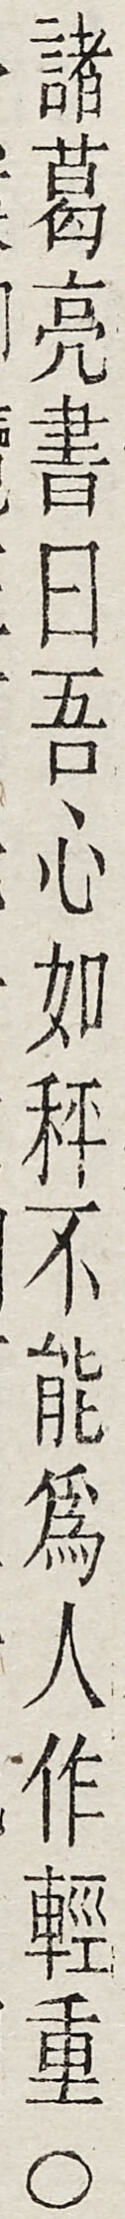諸葛亮書曰吾心如秤不能為人作輕重○
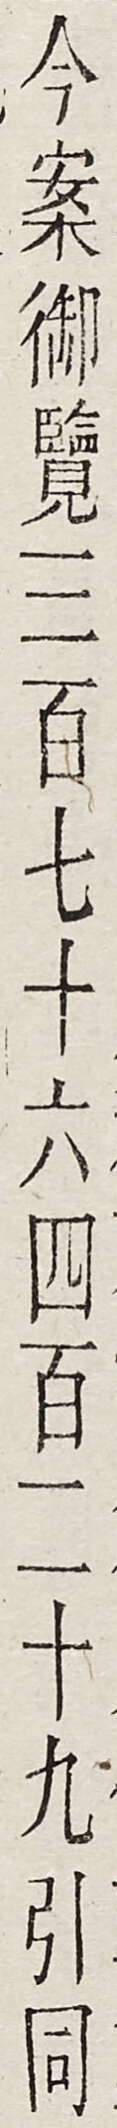今案御覽三百七十六四百二十九引同
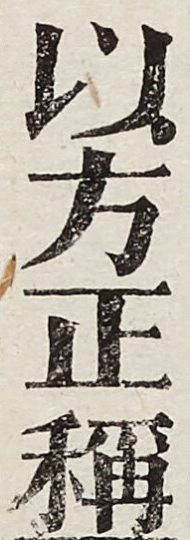以方正稱
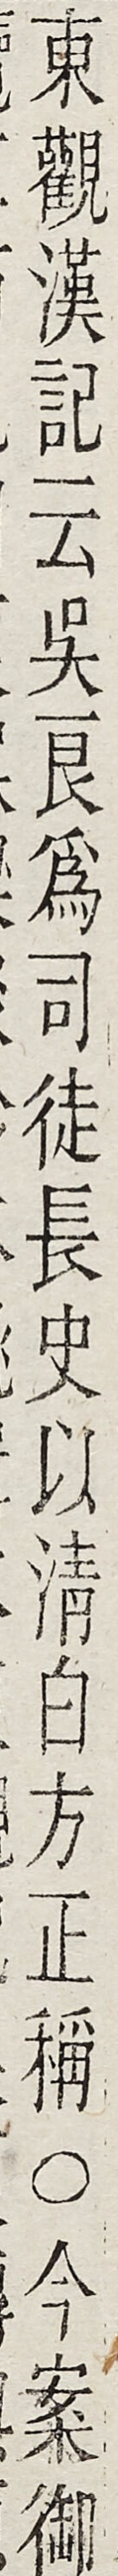東觀漢記云吳良為司徒長史以清白方正稱○今案御
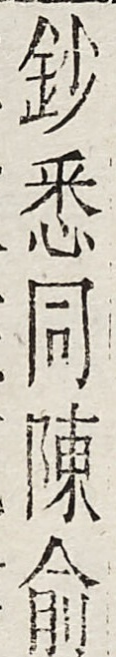鈔悉同陳俞
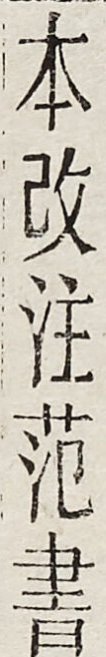本改注範書
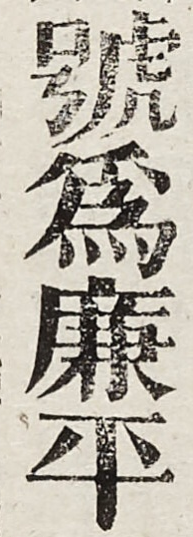號為廉平
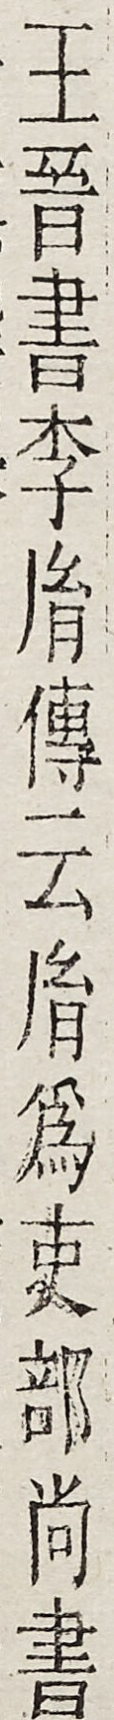王晉書李胤傳云胤為吏部尚書
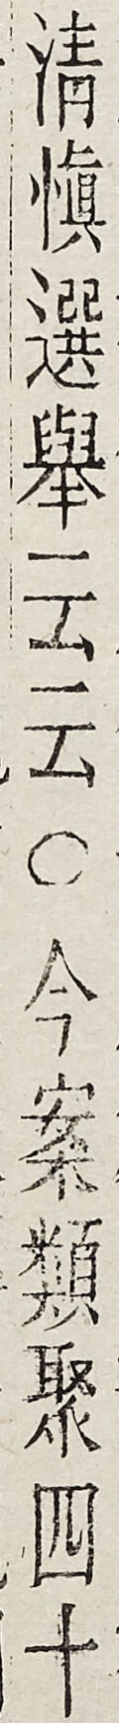清慎選舉云云○今案類聚四十
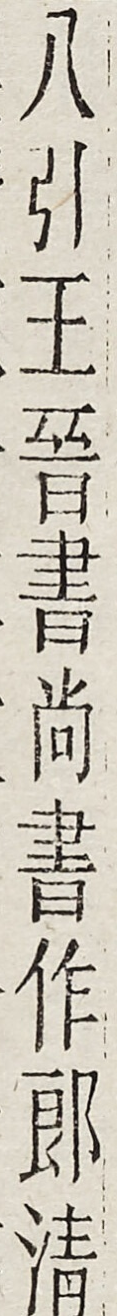八引王晉書尚書作郎清
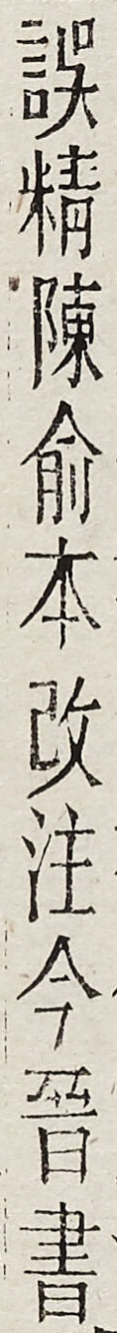誤精陳俞本改注今晉書
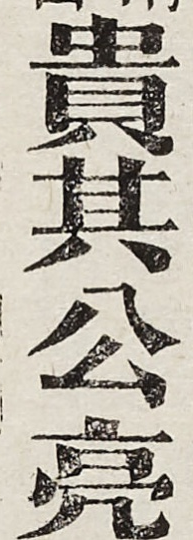貴其公亮
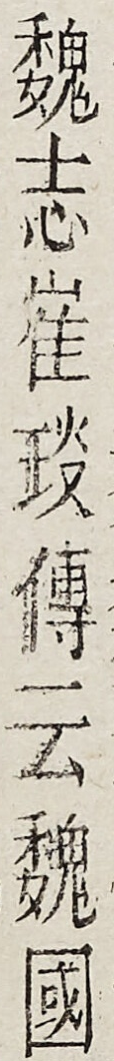魏志崔琰傳云魏國
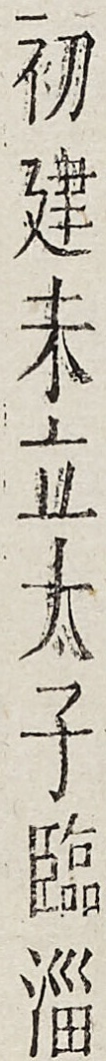初建未立太子臨淄
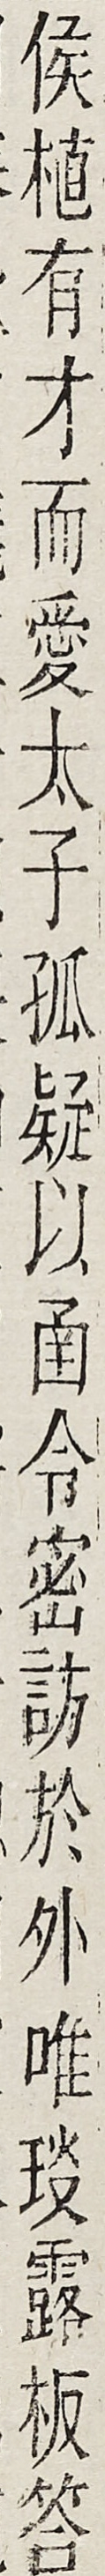侯植有才而愛太子孤疑以函令密訪於外唯琰露板答
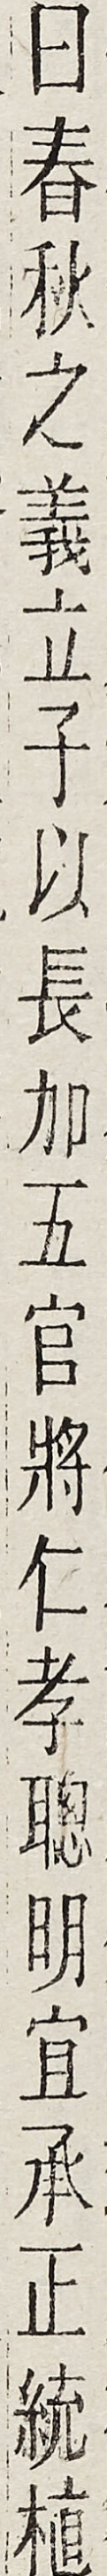曰春秋之義立子以長加五官將仁孝聰明宣承正統植
